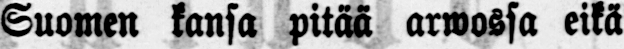Suomen kansa pitää arwossa eikä
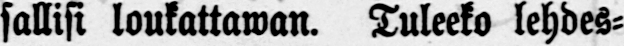sallisi loukattawan. Tuleeko lehdes-
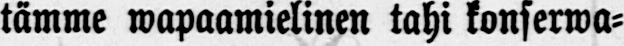tämme wapaamielinen tahi konserwa-
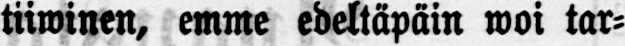tiiwinen, emme edeltäpäin woi tar-
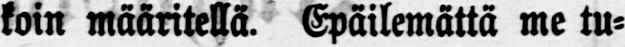koin määritellä. Epäilemättä me tu-
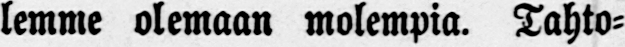lemme olemaan molempia. Tahto-
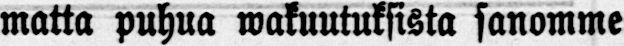matta puhua wakuutuksista sanomme
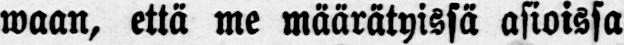waan, että me määrätyissä asioissa
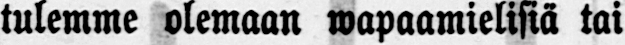tulemme olemaan wapaamielisiä tai
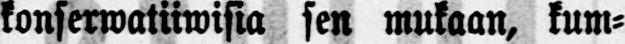konserwatiiwisia sen mukaan, kum-
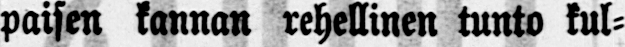paisen kannan rehellinen tunto kul-
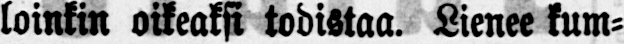loinkin oikeaksi todistaa. Lienee kum-
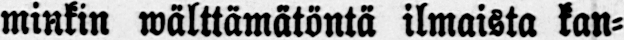minkin wälttämätöntä ilmaista kan-
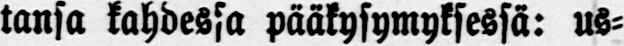tansa kahdessa pääkysymyksessä: us-
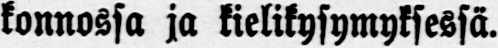konnossa ja kielikysymyksessä.
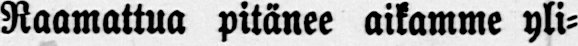Raamattua pitänee aikamme yli-
